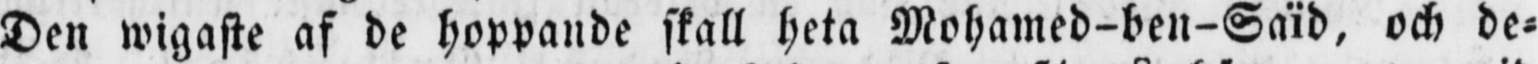Den wigaste af de hoppande skall heta Mohamed-ben-Saïd, och de-
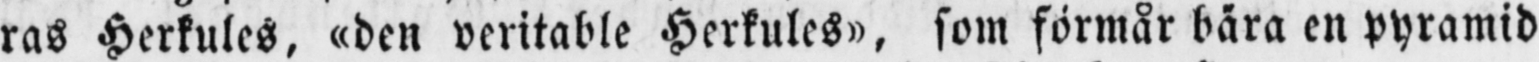ras Herkules, «den veritable Herkules», som förmår bära en pyramid
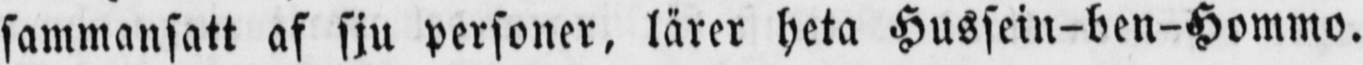sammansatt af sju personer, lärer heta Hussein-ben-Hommo.
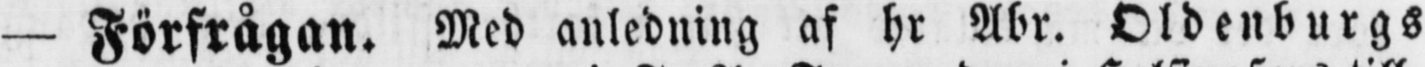— Förfrågan. Med anledning af hr Abr. Oldenburgs
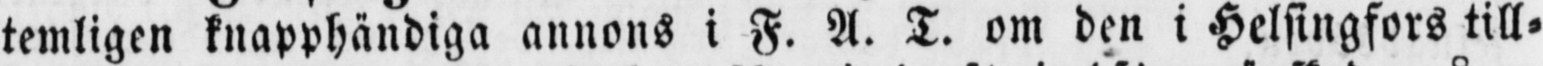temligen knapphändiga annons i F. A. T. om den i Helsingfors till-
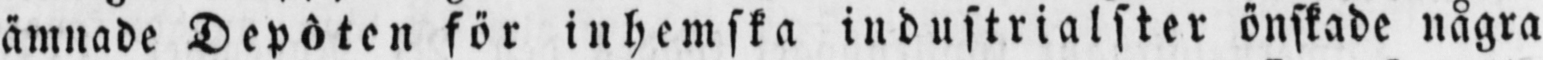ämnade Depôten för inhemska industrialster önskade några
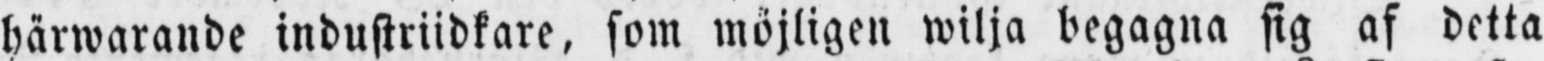härwarande industriidkare, som möjligen wilja begagna sig af detta
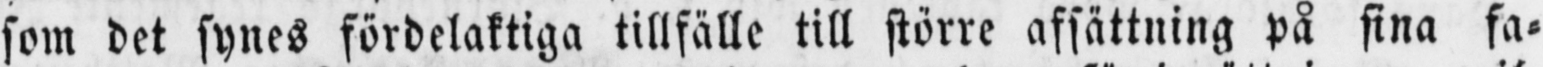som det synes fördelaktiga tillfälle till större afsättning på sina fa-
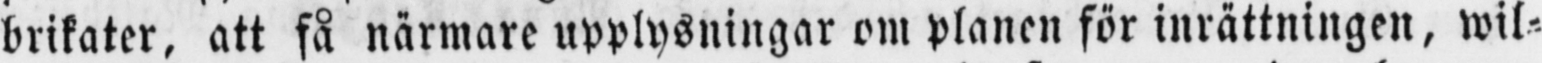brikater, att få närmare upplysningar om planen för inrättningen, wil-
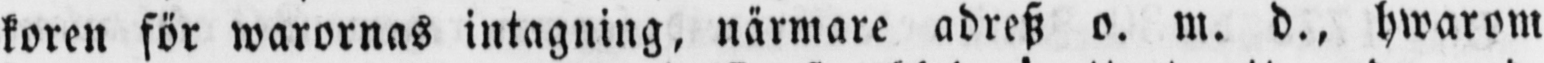koren för warornas intagning, närmare adresz o. m. d., hwarom
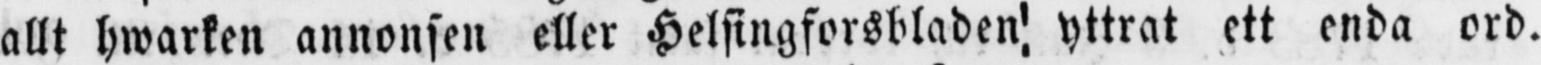allt hwarken annonsen eller Helsingforsbladen yttrat ett enda ord.
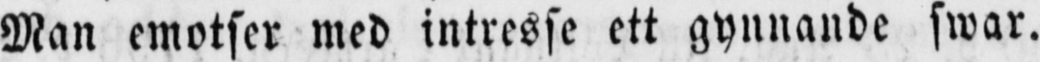Man emotser med intresse ett gynnande swar.
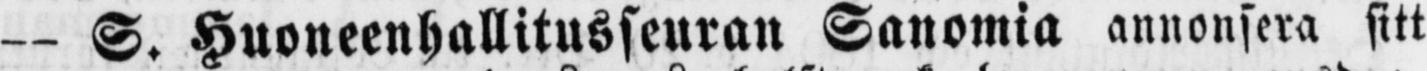— S. Huoneenhallitusseuran Sanomia annonsera sitt
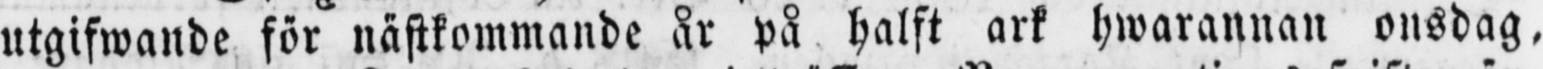utgifwande för nästkommande år på halft ark hwarannan onsdag,
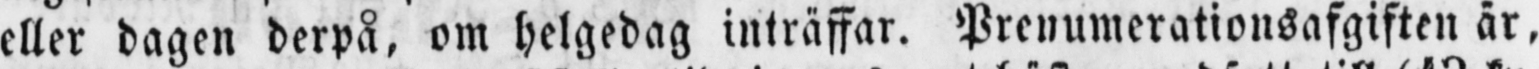eller dagen derpå, om helgedag inträffar. Prenumerationsafgiften är,
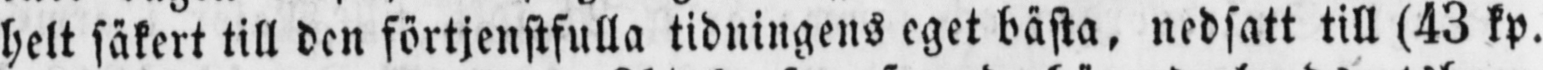helt säkert till den förtjenstfulla tidningens eget bästa, nedsatt till (43 kp.
